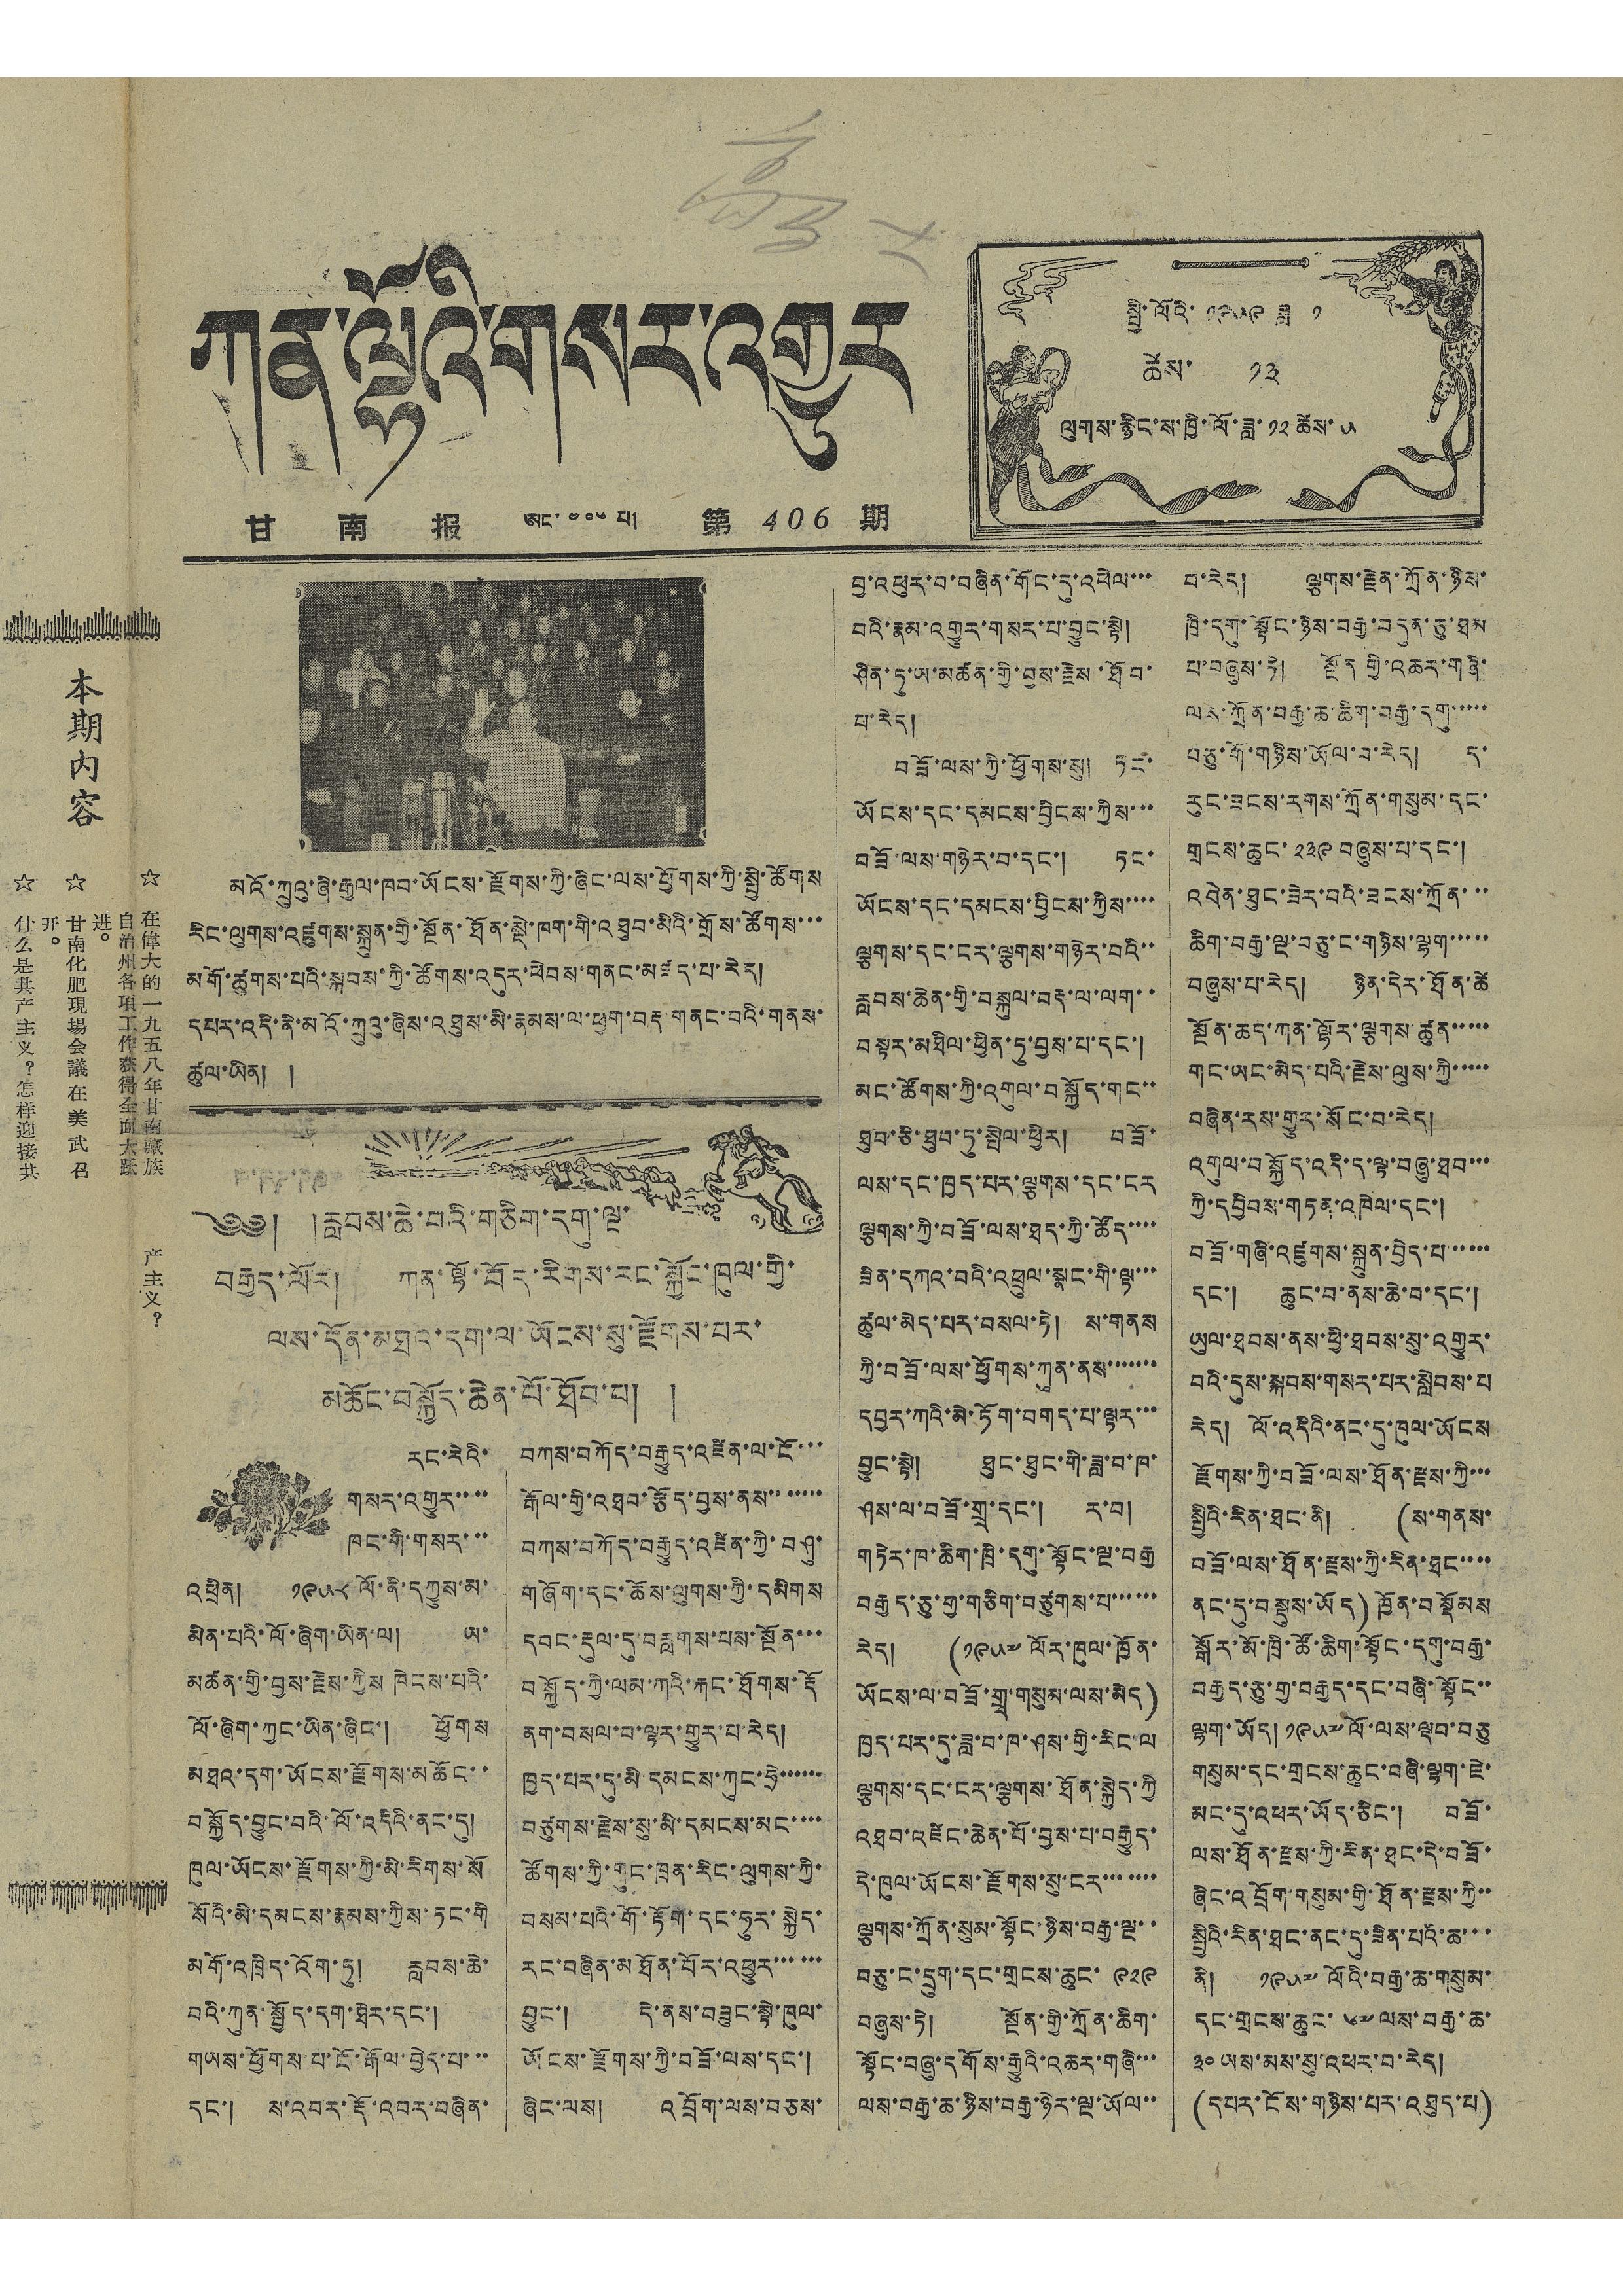ཀན་ལྷོའི་གསར་འགྱུར
甘 南 报 ཨང་ ༤༠༦ པ། 第 406 期
སྤྱི་ལོའི་ ༡༩༥༩ ཟླ་ ༡
ཚེས་ ༡༣
ལུགས་རྙིང་ས་ཁྱི་ལོ་ཟླ་ ༡༢ ཚེས་ ༥
本期內容
☆ 在偉大的一九五八年甘南藏族
自治州各項工作获得全面大跃
进。
☆ 甘南化肥現場会議在美武召
开。
☆ 什么是共产主义？怎样迎接共
产主义？
མའི་ཀྲུའུ་ཞི་རྒྱལ་ཁབ་ཡོངས་རྫོགས་ཀྱི་ཞིང་ལས་ཕྱོགས་ཀྱི་སྤྱི་ཚོགས
རིང་ལུགས་འཛུགས་སྐྲུན་གྱི་སྔོན་ཐོན་སྡེ་ཁག་གི་འཐུབ་མིའི་གྲོས་ཚོགས་་་
མགོ་ཚུགས་པའི་སྐབས་ཀྱི་ཚོགས་འདུར་ཕེབས་གནང་མཛད་པ་རེད།
དཔར་འདི་ནི་མའོ་ཀྲུའུ་ཞིས་འཐུས་མི་རྣམས་ལ་ཕྱག་བརྡ་གནང་བའི་གནས་
ཚུལ་ཡིན། །
༄༅། །རླབས་ཆེ་བའི་གཅིག་དགུ་ལྔ་
བརྒྱད་ལོར། ཀན་ལྷོ་བོད་རིགས་རང་སྐྱོང་ཁུལ་གྱི་
ལས་དོན་མཐའ་དག་ལ་ཡོངས་སུ་རྫོགས་པར་
མཆོང་བསྐྱོད་ཆེན་པོ་ཐོབ་པ། །
རང་རེའི་
གསར་འགྱུར་་་་
ཁང་གི་གསར་་་
འཕྲིན། ༡༩༥༨ ལོ་ནི་དཀྱུས་མ་
མིན་པའི་ལོ་ཞིག་ཡིན་ལ། ཡ་
མཚན་གྱི་བྱས་རྗེས་ཀྱིས ཁེངས་པའི་
ལོ་ཞིག་ཀྱང་ཡིན་ཞིང་། ཕྱོགས
མཐའ་དག་ཡོངས་རྫོགས་མཆོང་་
བསྐྱོད་བྱུང་བའི་ལོ་འདིའི་ནང་དུ།
ཁུལ་ཡོངས་རྫོགས་ཀྱི་མི་རིགས་སོ
སོའི་མི་དམངས་རྣམས་ཀྱིས་ཏང་གི
མགོ་འཁྲིད་འོག་ཏུ། རླབས་ཆེ་
བའི་ཀུན་སྦྱོད་དག་ཐེར་དང་།
གཡས་ཕྱོགས་པ་ངོ་རྒོལ་བྱེད་པ་་་
དང་། ས་འབར་རྡོ་འབར་བཞིན་
བཀས་བཀོད་བརྒྱུད་འཛིན་ལ་ངོ་་་
རྒོལ་གྱི་འཐབ་རྩོད་བྱས་ནས་་་་་་་
བཀས་བཀོད་བརྒྱུད་འཛིན་ཀྱི་བཤུ་
གཞོག་དང་ཆོས་ལུགས་ཀྱི་དམིགས
དབང་རྡུལ་དུ་བརླགས་པས་སྔོན་་་
བསྐྱོད་ཀྱི་ལམ་ཀའི་རྐང་ཐོགས་རྡོ
ནག་བསལ་བ་ལྟར་གྱུར་པ་རེད།
ཁྱད་པར་དུ་མི དམངས་ཀུང་ཧྲེ་་་་་་
བཙུགས་རྗེས་སུ་མི་དམངས་མང་་་་
ཚོགས་ཀྱི་གུང་ཁྲན་རིང་ལུགས་ཀྱི་
བསམ་པའི་གོ་རྟོག་དང་ཧུར་སྐྱེད་
རང་བཞིན་མཐོན་པོར་འཕྱུར་་་་་་
བྱུང་། དེ་ནས་བཟུང་སྟེ་ཁུལ་
ཡོངས་རྫོགས་ཀྱི་བཟོ་ལས་དང་།
ཞིང་ལས། འབྲོག་ལས་བཅས་
བྱ་འཕུར་བ་བཞིན་གོང་དུ་འཕེལ་་་
བའི་རྣམ་འགྱུར་གསར་པ་བྱུང་སྟེ།
ཤིན་ཏུ་ཡ་མཚན་གྱི་བྱས་རྗེས་ཐོབ་
པ་རེད།
བཟོ་ལས་ཀྱི་ཕྱོགས་སུ། ཏང་
ཡོངས་དང་དམངས་བྱིངས་ཀྱིས་་་
བཟོ་ལས་གཉེར་བ་དང་། ཏང་
ཡོངས་དང་དམངས་བྱིངས་ཀྱིས་་་་
ལྕགས་དང་ངར་ལྕགས་གཉེར་བའི་་
རླབས་ཆེན་གྱི་བསྐུལ་བརྡ་ལ་ལག་་
བསྟར་མཐིལ་ཕྱིན་ཏུ་བྱས་པ་དང་།
མང་ཐོགས་ཀྱི་འགུལ་བསྐྱོད་གང་་
ཐུབ་ཅི་ཐུབ་ཏུ་སྤེལ་ཕྱིར། བཟོ་
ལས་དང་ཁྱད་པར་ལྕགས་དང་ངར
ལྕགས་ཀྱི་བཟོ་ལས་ཐད་ཀྱི་ཚོད་་་་
ཟིན་དཀའ་བའི་འཕྲུལ་སྣང་གི་ལྟ་་་
ཚུལ་མེད་པར་བསལ་ཏེ། ས་གནས
ཀྱི་བཟོ་ལས་ཕྱོགས་ཀུན་ནས་་་་་་་
དབྱར་ཀའི་མེ་ཏོག་བགད་པ་ལྟར་་་
བྱུང་སྟེ། ཐུང་ཐུང་གི་ཟླ་བ་ཁ་
ཤས་ལ་བཟོ་གྲྭ་དང་། ར་བ།
གཏེར་ཁ་ཆིག་ཁྲི་དགུ་སྟོང་ལྔ་བརྒྱ
བརྒྱད་ཅུ་གྱ་གཅིག་བཙུགས་པ་་་་་་
རེ། (༡༩༥༧ ལོར་ཁུལ་ཁྱོན་
ཡོངས་ལ་བཟོ་གྲྭ་གསུམ་ལས་མེད་)
ཁྱད་པར་དུ་ཟླ་བ་ཁ་ཤས་གྱི་རིང་ལ
ལྕགས་དང་ངར་ལྕགས་ཐོན་སྐྱེད་ཀྱི
འཐབ་འཛིང་ཆེན་པོ་བྱས་པ་བརྒྱུད་
དེ་ཁུལ་ཡོངས་རྫོགས་སུ་ངར་་་ ་་་་
ལྕགས་ཀྲོན་སུམ་སྟོང་ཉིས་བརྒྱ་ལྔ་་
བཅུ་ང་དྲུག་དང་གྲངས་ཆུང་ ༩༢༩
བཞུས་ཏེ། སྔོན་གྱི་ཀྲོན་ཆིག་
སྟོང་བཞུ་དགོས་རྒྱུའི་འཆར་གཞི་་་
ལས་བརྒྱ་ཆ་ཉིས་བརྒྱ་ཉེར་ལྔ་ཡོལ་་
བ་རེད། ལྕགས་རྗེན་ཀྲོན་ཉིས་
ཁྲི་དགུ་སྟོང་ཉིས་བརྒྱ་བདུན་ཅུ་ཐམ
པ་བཞུས་ཏེ། སྔོན གྱི་འཆར་གཞི་
ལས་ཀྲོན་བརྒྱ་ཆ་ཆིག་བརྒྱ་དགུ་་་་་
བཅུ་གོ་གཉིས་ཡོལ་བ་རེད། ད་
རུང་ཟངས་རགས་ཀྲོན་གསུམ་དང་
གྲངས་ཆུང་ ༢༣༩ བཞུས་པ་དང་།
འབེན་ཐུང་ཟེར་བའི་ཟངས་ཀྲོན་་་
ཆིག་བརྒྱ་ལྔ་བཅུ་ང་གཉིས་ལྷག་་་་་
བཞུས་པ་རེད། ཉིན་དེར་ཐོན་ཚེ
སྔོན་ཆད་ཀན་ལྷོར་ལྕགས་ཚུན་་་་་
གང་ཡང་མེད་པའི་རྗེས་ལུས་ཀྱི་་་་་
བཞིན་རས་གྱུར་སོང་བ་རེད།
འགུལ་བསྐྱོད་འདི་ད་ལྟ་བཞུ་ཐབ་་་
ཀྱི་དབྱིབས་གཏན་འཁེལ་དང་།
བཟོ་གཞི་འཛུགས་སྐྲུན་བྱེད་པ་་་་་
དང་། ཆུང་བ་ནས་ཆེ་བ་དང་།
ཡུལ་ཐབས་ནས་ཕྱི་ཐབས་སུ་འགྱུར་
བའི་དུས་སྐབས་གསར་པར་སླེབས་པ
རེད། ལོ་འདིའི་ནང་དུ་ཁུལ་ཡོངས
རྫོགས་ཀྱི་བཟོ་ལས་ཐོན་རྫས་ཀྱི་་་
སྤྱིའི་རིན་ཐང་ནི། (ས་གནས་
བཟོ་ལས་ཐོན་རྫས་ཀྱི་རིན་ཐང་་་་
ནང་དུ་བསྡུས་ཡོད་)ཁྱོན་བསྡོམས
སྒོར་མོ་ཁྲི་ཚོ་ཆིག་སྟོང་དགུ་བརྒྱ་
བརྒྱད་ཅུ་གྱ་བརྒྱད་དང་བཞི་སྟོང་་
ལྷག་ཡོད། ༡༩༥༧ ལོ་ལས་ལྡབ་བཅུ
གསུམ་དང་གྲངས་ཆུང་བཞི་ལྷག་ཇེ་
མང་དུ་འཕར་ཡོད་ཅིང་། བཟོ་
ལས་ཐོན་རྫས་ཀྱི་རིན་ཐང་དེ་བཟོ་
ཞིང་འབྲོག་གསུམ་གྱི་ཐོན་རྫས་ཀྱི་་
སྤྱིའི་རིན་ཐང་ནང་དུ་ཟིན་པའི་ཆ་་་
ནི། ༡༩༥༧ ལོའི་བརྒྱ་ཆ་གསུམ་
དང་གྲངས་ཆུང་ ༦༧ ལས་བརྒྱ་ཆ་
༣༠ ཡས་མས་སུ་འཕར་བ་རེད།
(དཔར་ངོས་གཉིས་པར་འཐུད་པ)
